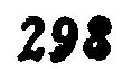298
